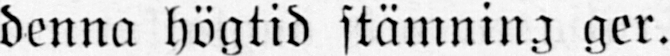denna högtid stämning ger.
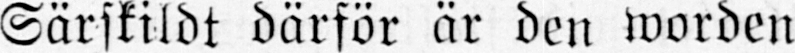Särskildt därför är den worden
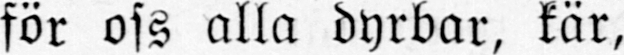för oss alla dyrbar, kär,
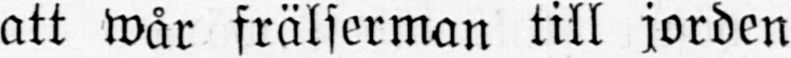att wår frälserman till jorden
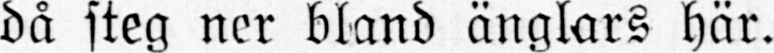då steg ner bland änglars här.
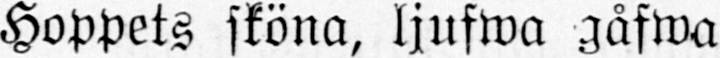Hoppets sköna, ljufwa gåfwa
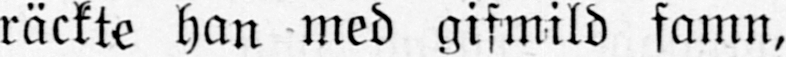räckte han med gifmild famn,
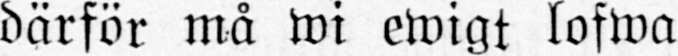därför må wi ewigt lofwa
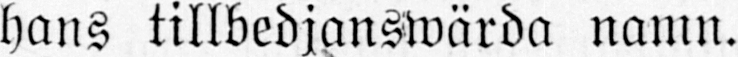hans tillbedjanswärda namn.
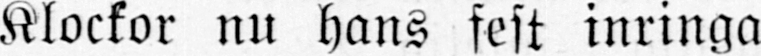Klockor nu hans fest inringa
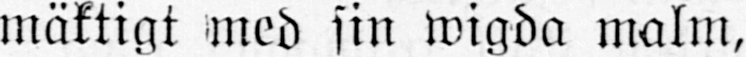mäktigt med sin wigda malm,
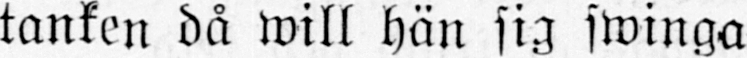tanken då will hän sig swinga
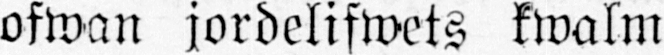ofwan jordelifwets kwalm....
